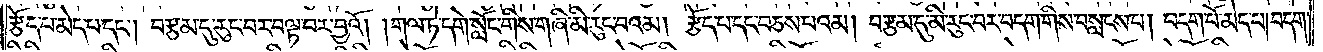རྩོད་པ་མེད་པ་དང༌། བརྩམ་དུ་རུང་བར་བལྟ་བར་བྱའོ། །གལ་ཏེ་དགེ་སློང་གིས་གཞི་མི་རུང་བའམ། རྩོད་པ་དང་བཅས་པའམ། བརྩམ་དུ་མི་རུང་བར་བདག་གིས་བསླངས་པ། བདག་པོ་མེད་པ། བདག་
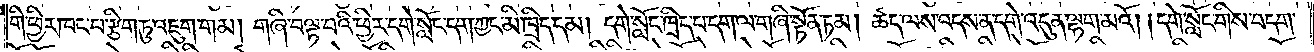གི་ཕྱིར་ཁང་པ་རྩིག་ཏུ་འཇུག་གམ། གཞི་བལྟ་བའི་ཕྱིར་དགེ་སློང་དག་ཀྱང་མི་ཁྲིད་དམ། དགེ་སློང་ཁྲིད་པ་དག་ལ་གཞི་སྟོན་ཏམ། ཚད་ལས་འདས་ན་དགེ་འདུན་ལྷག་མའོ། །དགེ་སློང་གིས་བདག་
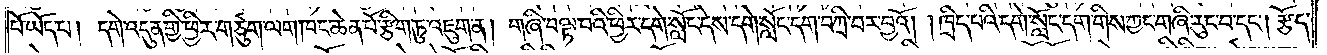པོ་ཡོད་པ། དགེ་འདུན་གྱི་ཕྱིར་གཙུག་ལག་ཁང་ཆེན་པོ་རྩིག་ཏུ་འཇུག་ན། གཞི་བལྟ་བའི་ཕྱིར་དགེ་སློང་དེས་དགེ་སློང་དག་བཀྲི་བར་བྱའོ། །ཁྲིད་པའི་དགེ་སློང་དག་གིས་ཀྱང་གཞི་རུང་བ་དང༌། རྩོད་
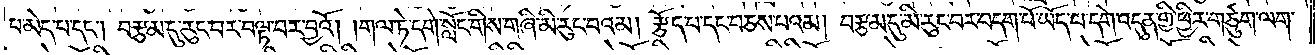པ་མེད་པ་དང༌། བརྩམ་དུ་རུང་བར་བལྟ་བར་བྱའོ། །གལ་ཏེ་དགེ་སློང་གིས་གཞི་མི་རུང་བའམ། རྩོད་པ་དང་བཅས་པའམ། བརྩམ་དུ་མི་རུང་བར་བདག་པོ་ཡོད་པ་དགེ་འདུན་གྱི་ཕྱིར་གཙུག་ལག་
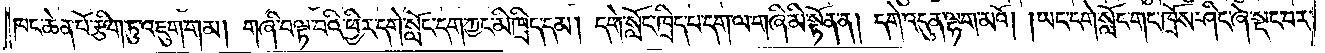ཁང་ཆེན་པོ་རྩིག་ཏུ་འཇུག་གམ། གཞི་བལྟ་བའི་ཕྱིར་དགེ་སློང་དག་ཀྱང་མི་ཁྲིད་དམ། དགེ་སློང་ཁྲིད་པ་དག་ལ་གཞི་མི་སྟོན་ན། དགེ་འདུན་ལྷག་མའོ། །ཡང་དགེ་སློང་གང་ཁྲོས་ཤིང་ཞེ་སྡང་བར་
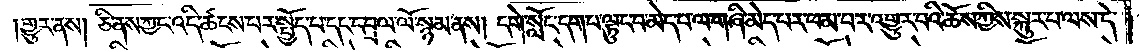།གྱུར་ནས། ཅི་ནས་ཀྱང་འདི་ཚངས་པར་སྤྱོད་པ་དང་དབྲལ་ལོ་སྙམ་ནས། དགེ་སློང་དག་པ་ལྟུང་བ་མེད་པ་ལ་གཞི་མེད་པར་ཕམ་པར་འགྱུར་བའི་ཆོས་ཀྱིས་སྐུར་པ་ལས་དེ་
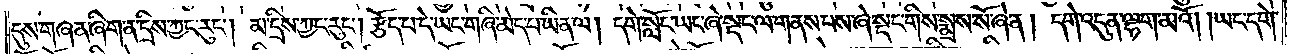དུས་གཞན་ཞིག་ན་དྲིས་ཀྱང་རུང༌། མ་དྲིས་ཀྱང་རུང༌། རྩོད་པ་དེ་ཡང་གཞི་མེད་པ་ཡིན་ལ། དགེ་སློང་ཡང་ཞེ་སྡང་ལ་གནས་པས་ཞེ་སྡང་གིས་སྨྲས་སོ་ཞེ་ན། དགེ་འདུན་ལྷག་མའོ། །ཡང་དགེ་
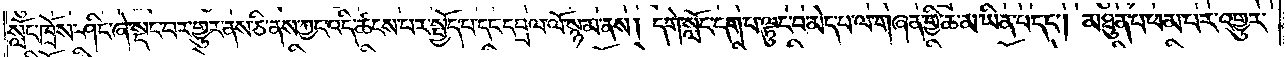སློང་ཁྲོས་ཤིང་ཞེ་སྡང་བར་གྱུར་ནས་ཅི་ནས་ཀྱང་འདི་ཚངས་པར་སྤྱོད་པ་དང་དབྲལ་ལོ་སྙམ་ནས། དགེ་སློང་དག་པ་ལྟུང་བ་མེད་པ་ལ་གཞན་གྱི་ཆ་མ་ཡིན་པ་དང༌། མཐུན་པ་ཕམ་པར་འགྱུར་
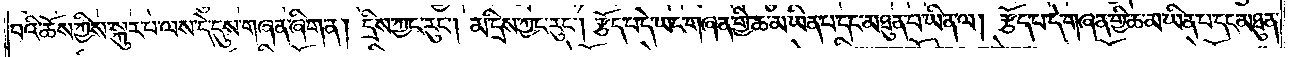བའི་ཆོས་ཀྱིས་སྐུར་པ་ལས་དེ་དུས་གཞན་ཞིག་ན། དྲིས་ཀྱང་རུང༌། མ་དྲིས་ཀྱང་རུང༌། རྩོད་པ་དེ་ཡང་གཞན་གྱི་ཆ་མ་ཡིན་པ་དང་མཐུན་པ་ཡིན་ལ། རྩོད་པ་དེ་གཞན་གྱི་ཆ་མ་ཡིན་པ་དང་མཐུན་
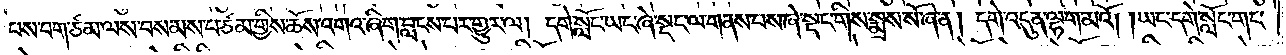པས་བག་ཙམ་ལས་བསམས་པ་ཙམ་གྱིས་ཆོས་འགའ་ཞིག་བླངས་པར་གྱུར་ལ། དགེ་སློང་ཡང་ཞེ་སྡང་ལ་གནས་པས་ཞེ་སྡང་གིས་སྨྲས་སོ་ཞེ་ན། དགེ་འདུན་ལྷག་མའོ། །ཡང་དགེ་སློང་གང་
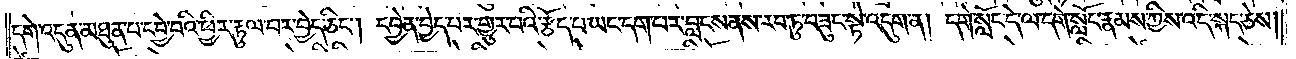དགེ་འདུན་མཐུན་པ་དབྱེ་བའི་ཕྱིར་རྟུལ་བར་བྱེད་ཅིང༌། དབྱེན་བྱེད་པར་གྱུར་པའི་རྩོད་པ་ཡང་དག་པར་བླངས་ནས་རབ་ཏུ་བཟུང་སྟེ་འདུག་ན། དགེ་སློང་དེ་ལ་དགེ་སློང་རྣམས་ཀྱིས་འདི་སྐད་ཅེས།
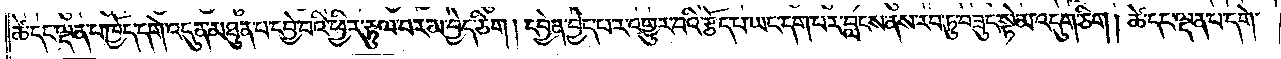ཚེ་དང་ལྡན་པ་ཁྱོད་དགེ་འདུན་མཐུན་པ་དབྱེ་བའི་ཕྱིར་རྟུལ་པར་མ་བྱེད་ཅིག། དབྱེན་བྱེད་པར་འགྱུར་བའི་རྩོད་པ་ཡང་དག་པར་བླངས་ནས་རབ་ཏུ་བཟུང་སྟེ་མ་འདུག་ཅིག། ཚེ་དང་ལྡན་པ་དགེ་
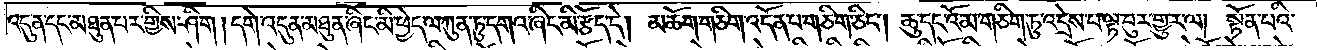འདུན་དང་མཐུན་པར་གྱིས་ཤིག །དགེ་འདུན་མཐུན་ཞིང་མི་ཕྱེད་ལ་ཀུན་ཏུ་དགའ་ཞིང་མི་རྩོད་དེ། མཆོག་གཅིག་འདོན་པ་གཅིག་ཅིང༌། ཆུ་དང་འོ་མ་གཅིག་ཏུ་འདྲེས་པ་ལྟ་བུར་གྱུར་ལ། སྟོན་པའི་
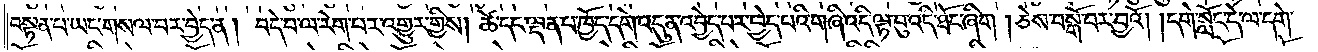བསྟན་པ་ཡང་གསལ་བར་བྱེད་ན། བདེ་བ་ལ་རེག་པར་འགྱུར་གྱིས། ཚེ་དང་ལྡན་པ་ཁྱོད་དགེ་འདུན་འབྱེད་པར་བྱེད་པའི་གཞི་འདི་ལྟ་བུ་འདི་ཐོང་ཞིག །ཅེས་བསྒོ་བར་བྱའོ། །དགེ་སློང་དེ་ལ་དགེ་
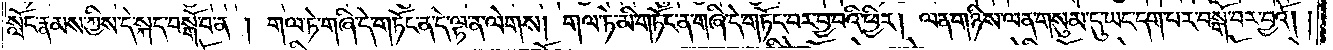སློང་རྣམས་ཀྱིས་དེ་སྐད་བསྒོ་བ་ན། གལ་ཏེ་གཞི་དེ་གཏོང་ན་དེ་ལྟ་ན་ལེགས། གལ་ཏེ་མི་གཏོང་ན་གཞི་དེ་གཏོང་བར་བྱ་བའི་ཕྱིར། ལན་གཉིས་ལན་གསུམ་དུ་ཡང་དག་པར་བསྒོ་བར་བྱའོ། །
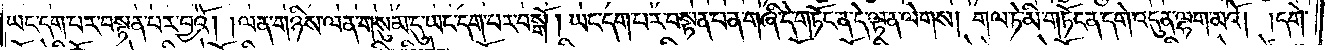ཡང་དག་པར་བསྟན་པར་བྱའོ། །ལན་གཉིས་ལན་གསུམ་དུ་ཡང་དག་པར་བསྒོ། ཡང་དག་པར་བསྟན་པ་ན་གཞི་དེ་གཏོང་ན་དེ་ལྟ་ན་ལེགས། གལ་ཏེ་མི་གཏོང་ན་དགེ་འདུན་ལྷག་མའོ། །དགེ་
